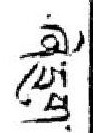ཞེ་དྲུག་
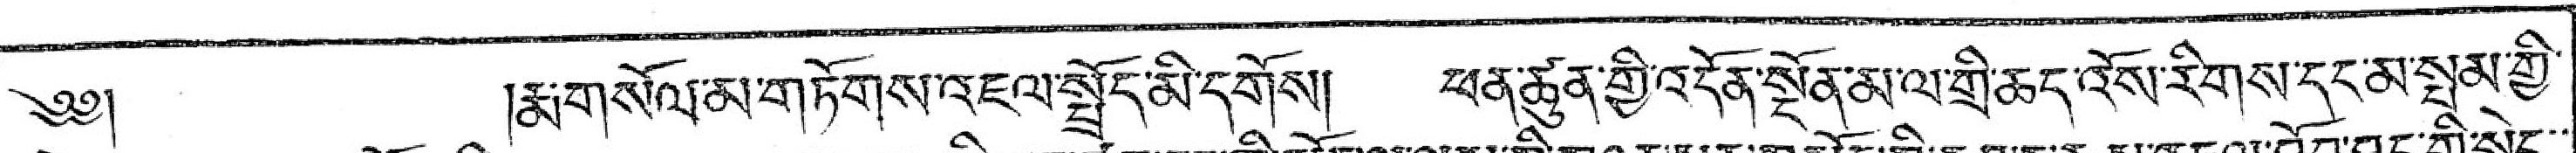༄༅།  །རྨ་གསོལ་མ་གཏོགས་འཇལ་སྤྲོད་མི་དགོས། ཕན་ཚུན་གྱི་འདོན་སྔོན་མ་ལ་གྲི་ཆད་འོས་རིགས་དང་མ་སྤམ་གྱི་
